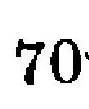70
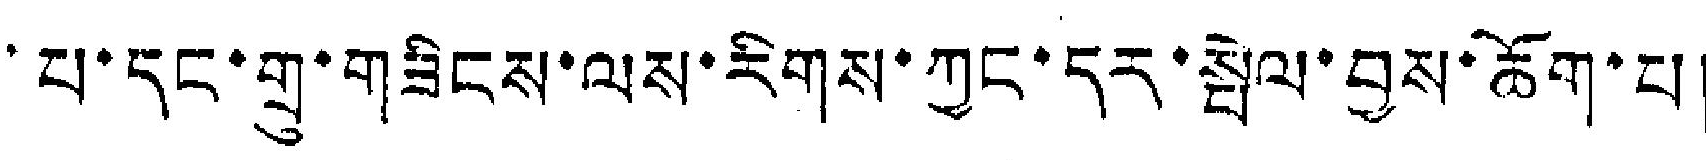པ་དང་གྲུ་གཟིངས་ལས་རིགས་ཀྱང་དར་སྤེལ་བྱས་ཆོག་པ།
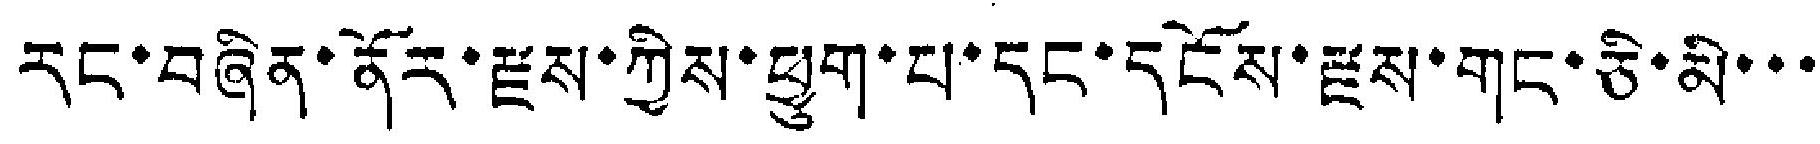རང་བཞིན་ནོར་རྫས་ཀྱིས་ཕྱུག་པ་དང་དངོས་རྫས་གང་ཅི་མི་་་
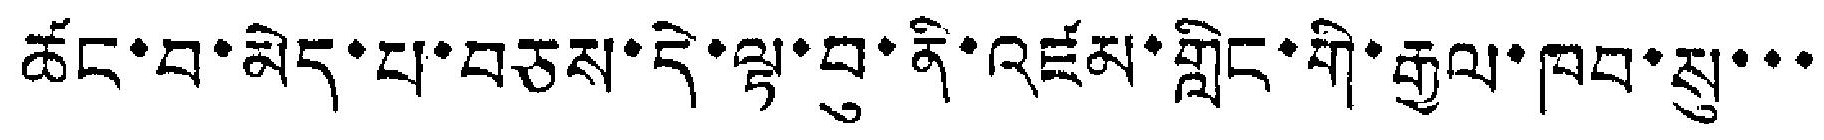ཚང་བ་མེད་པ་བཅས་དེ་ལྟ་བུ་ནི་འཛམ་གླིང་གི་རྒྱལ་ཁབ་སུ་་་
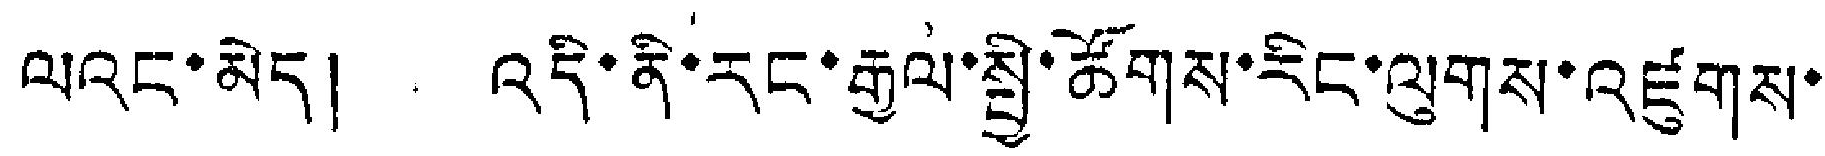ལའང་མེད། འདི་ནི་རང་རྒྱལ་སྤྱི་ཚོགས་རིང་ལུགས་འཛུགས་
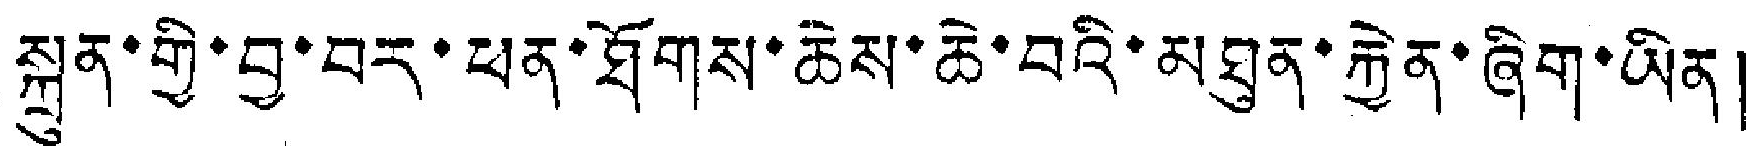སྐྲུན་གྱི་བྱ་བར་ཕན་ཐོགས་ཆེས་ཆེ་བའི་མཐུན་རྐྱེན་ཞིག་ཡིན།
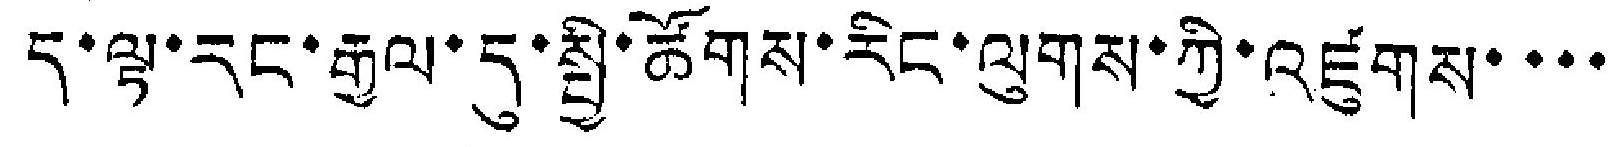ད་ལྟ་རང་རྒྱལ་དུ་སྤྱི་ཚོགས་རིང་ལུགས་ཀྱི་འཛུགས་་་་
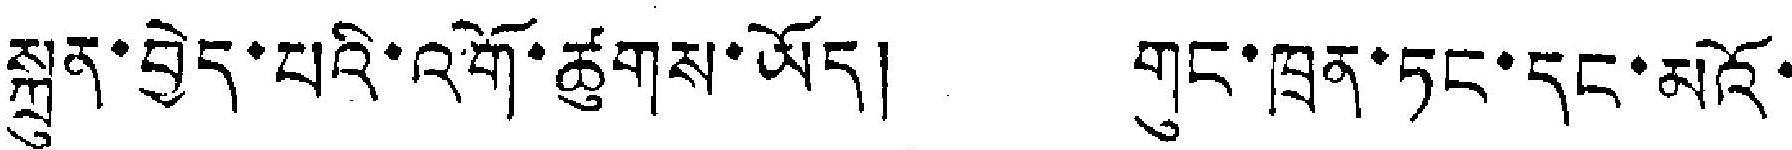སྐྲུན་བྱེད་པའི་འགོ་ཚུགས་ཡོད། གུང་ཁྲན་ཏང་དང་མའོ་
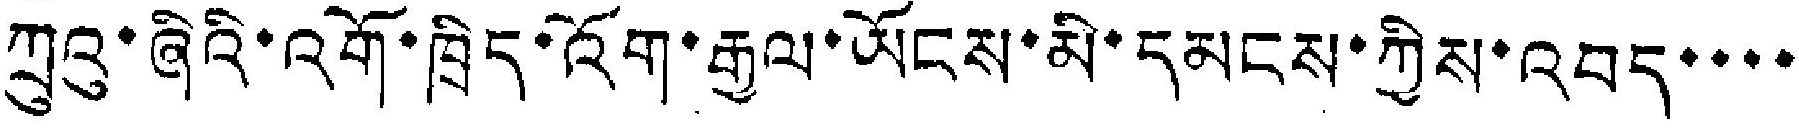ཀྲུའུ་ཞིའི་འགོ་ཁྲིད་འོག་རྒྱལ་ཡོངས་མི་དམངས་ཀྱིས་འབད་་་་
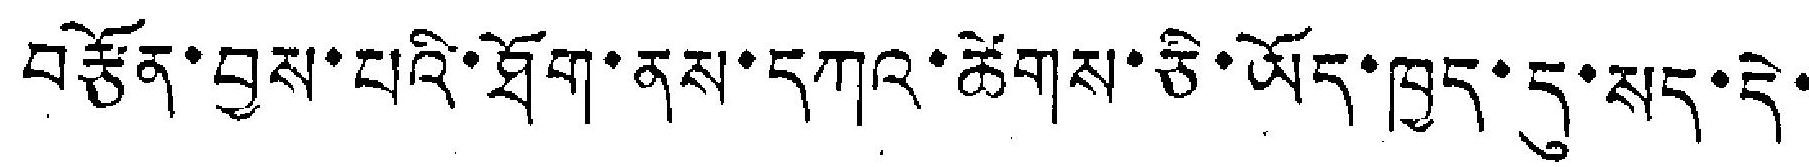བརྩོན་བྱས་པའི་ཐོག་ནས་དཀའ་ཚེགས་ཅི་ཡོད་ཁྱད་དུ་སད་དེ་
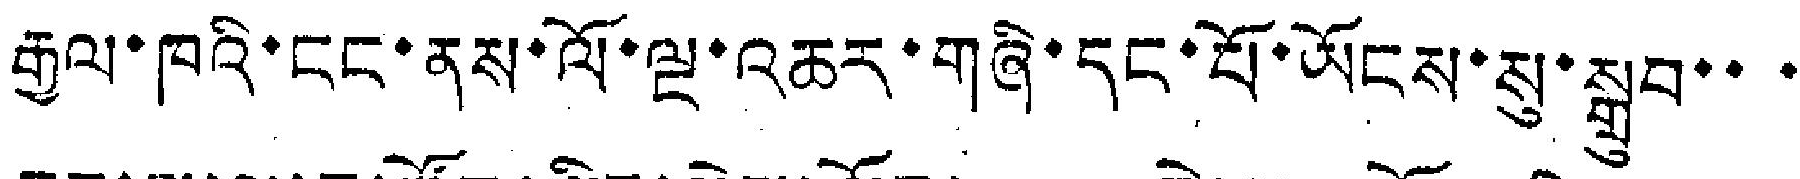རྒྱལ་ཁའི་ངང་ནས་ལོ་ལྔ་འཆར་གཞི་དང་པོ་ཡོངས་སུ་སྒྲུབ་་་
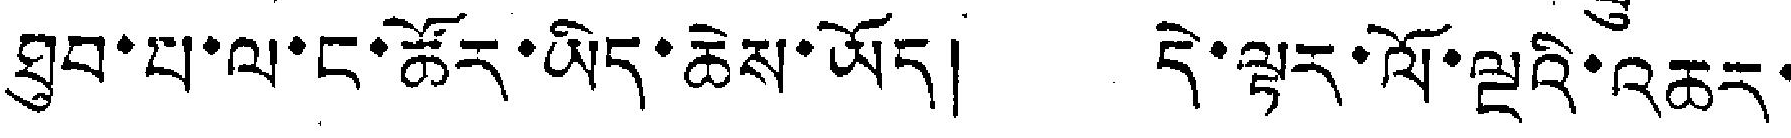ཐུབ་པ་ལ་ང་ཚོར་ཡིད་ཆེས་ཡོད། དེ་ལྟར་ལོ་ལྔའི་འཆར་
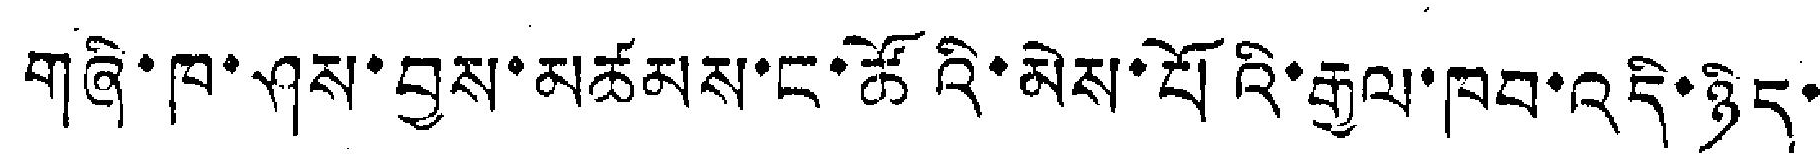གཞི་ཁ་ཤས་བྱས་མཚམས་ང་ཚོའི་མེས་པོའི་རྒྱལ་ཁབ་འདི་ཉིད་་
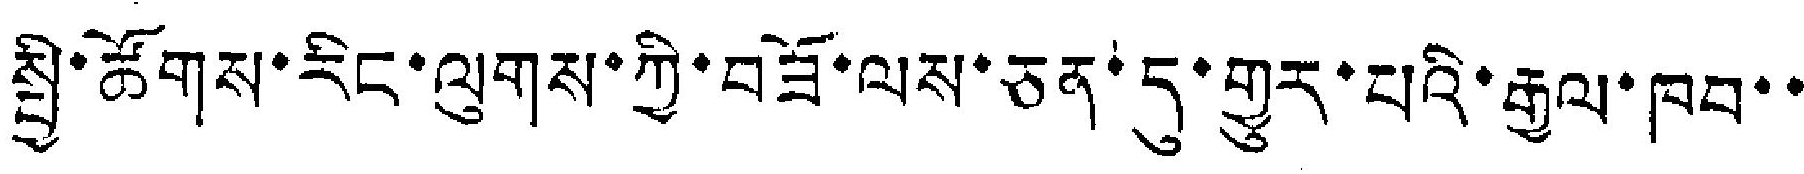སྤྱི་ཚོགས་རིང་ལུགས་ཀྱི་བཟོ་ལས་ཅན་དུ་གྱུར་པའི་རྒྱལ་ཁབ་་
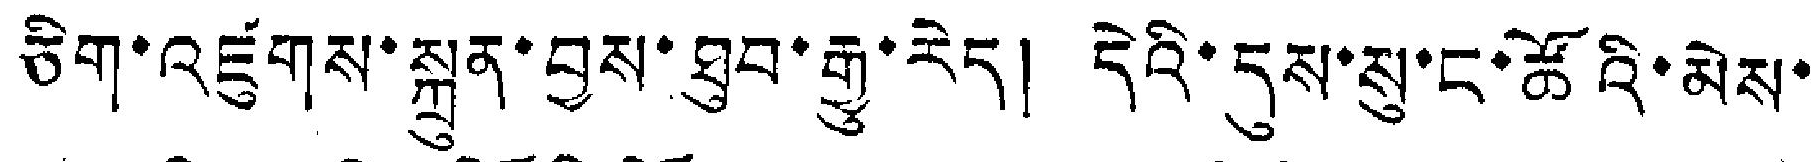ཅིག་འཛུགས་སྐྲུན་བྱས་ཐུབ་རྒྱུ་རེད། དེའི་དུས་སུ་ང་ཚོའི་མེས་
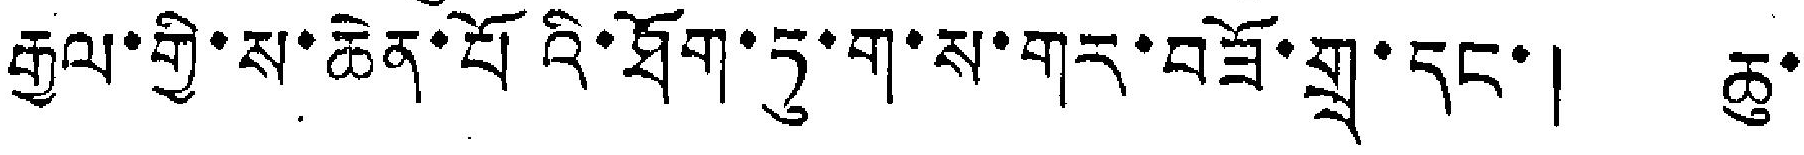རྒྱལ་གྱི་ས་ཆེན་པོའི་ཐོག་ཏུ་ག་ས་གར་བཟོ་གྲྭ་དང་། ཆུ་
